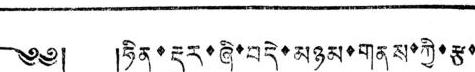༄༅། །ཧིན་རྡུར་ཞི་བདེ་མཉམ་གནས་ཀྱི་རྩ་
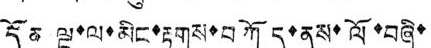དོན ལྔ་ལ་མིང་རྟགས་བཀོད་ནས་ལོ་བཞི་
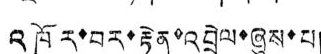འཁོར་བར་རྟེན་འབྲེལ་ཞུས་པ།
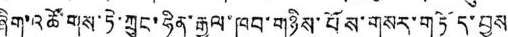ཞིག་འཚོགས་ཏེ་ཀྲུང་ཧིན་རྒྱལ་ཁབ་གཉིས་པོས་གསར་གཏོད་བྱས་
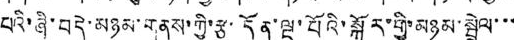པའི་ཞི་བདེ་མཉམ་གནས་ཀྱི་རྩ་དོན་ལྔ་པོའི་སྐོར་གྱི་མཉམ་སྦྲེལ་་་
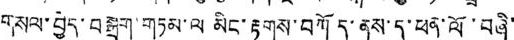གསལ་བྱེད་བསྐྲག་གཏམ་ལ མིང་རྟགས་བཀོད་ནས་ད་ཕན་ལོ་བཞི་
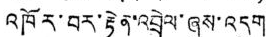འཁོར་བར་རྟེན་འབྲེལ་ཞུས་འདུག
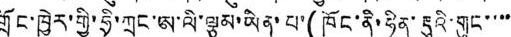གྲོང་ཁྱེར་གྱི་ཧྲི་ཀྲང་ཨ་ལི་ལྕམ་ཡིན་པ་(ཁོང་ནི་ཧིན་རྡུའི་གུང་་་་
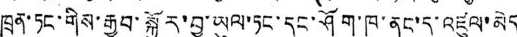ཁྲན་ཏང་གིས་རྒྱབ་སྐྱོར་བྱ་ཡུལ་ཏང་དང་ཤོག་ཁ་ནང་དུ་འཛུལ་མེད
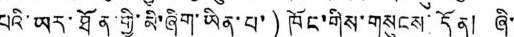པའི་ཡར་ཐོན་གྱི་མི་ཞིག་ཡིན་པ་) ཁོང་གིས་གསུངས་དོན། ཞི་
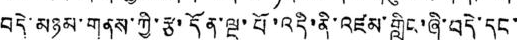བདེ་མཉམ་གནས་ཀྱི་རྩ་དོན་ལྔ་པོ་འདི་ནི་འཛམ་གླིང་ཞི་བདེ་དང་
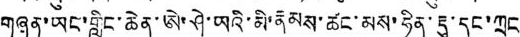གཞན་ཡང་གླིང་ཆེན་ཨེ་ཤེ་ཡའི་མི་རྣམས་ཚང་མས་ཧིན་རྡུ་དང་ཀྲུང
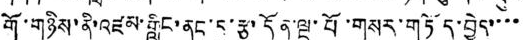གོ་གཉིས་ནི་འཛམ་གླིང་ནང་དུ་རྩ་དོན་ལྔ་པོ་གསར་གཏོད་བྱེད་་་་
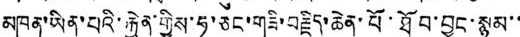མཁན་ཡིན་པའི་རྐྱེན་གྱིས་ཧ་ཅང་གཟི་བརྗིད་ཆེན་པོ་ཐོབ་བྱུང་སྙམ་་
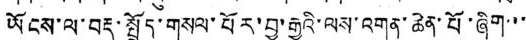ཡོངས་ལ་བརྡ་སྤྲོད་གསལ་པོར་བྱ་རྒྱུའི་ལས་འགན་ཆེན་པོ་ཞིག་་་
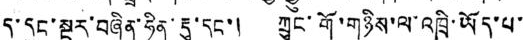ད་དུང་སྔར་བཞིན་ཧིན་རྡུ་དང་། ཀྲུང་གོ་གཉིས་ལ་འཁྲི་ཡོད་པ་
